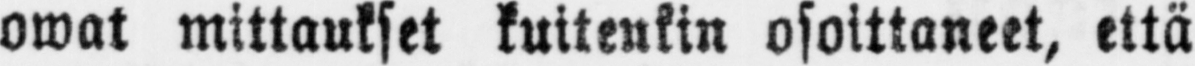owat mittaukset kuitenkin osoittaneet, että
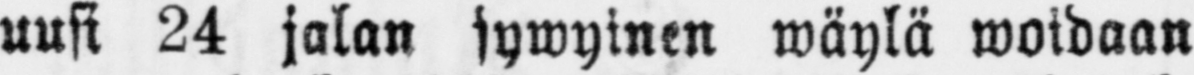uusi 24 jalan sywyinen wäylä woidaan
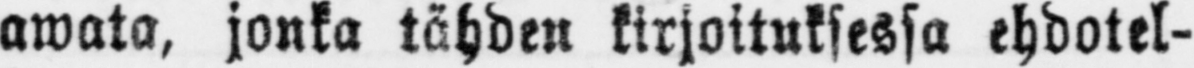awata, jonka tähden kirjoituksessa ehdotel-
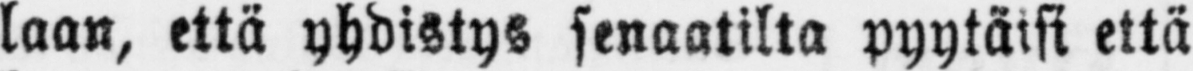laan, että yhdistys senaatilta pyytäisi että
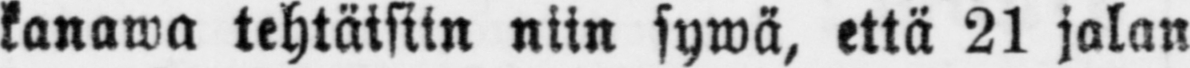kanawa tehtäisiin niin sywä, että 21 jalan
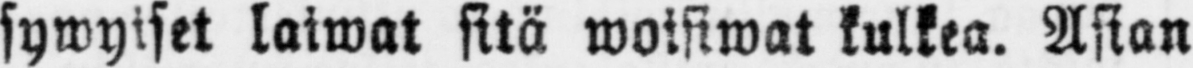sywyiset laiwat sitä woisiwat kulkea. Asian
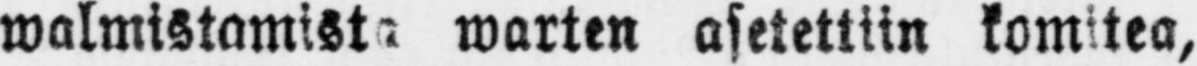walmistamista warten asetettiin komitea,
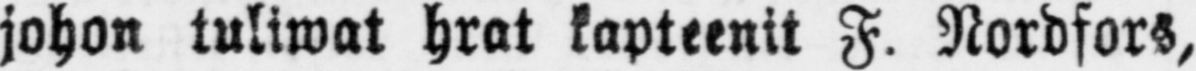johon tuliwat hrat kapteenit F. Nordfors,
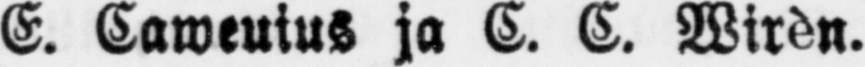E. Caweuius ja C. C. Wirèn.
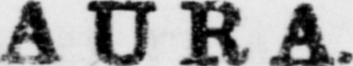AURA.
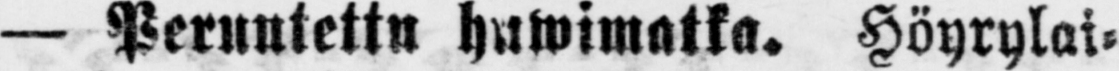— Peruutettu huwimatka. Höyrylai-
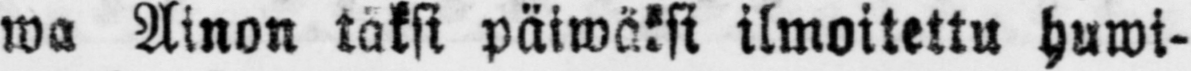wa Ainon täksi päiwäksi ilmoitettu huwi-
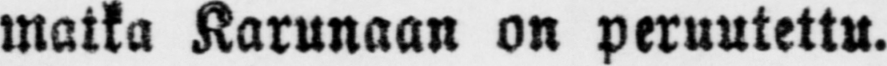matka Karunaan on peruutettu.
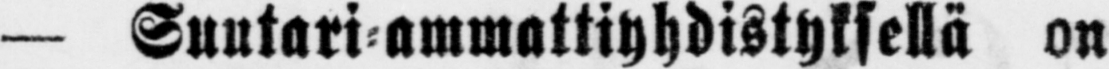— Suutari-ammattiyhdistyksellä on
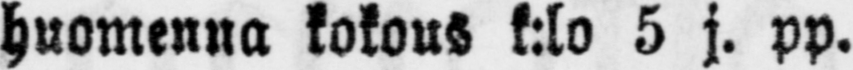huomenna kokous k:lo 5 j. pp.
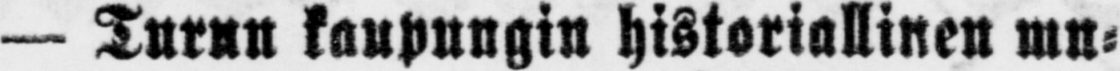— Turun kaupungin historiallinen mu-
